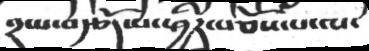༢་པ་བརྩོད་པ་ཕྱིར་བཅོས་པ་ལ་
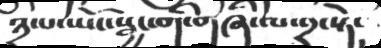༣་པ་ཡོང་སྦྱང་གི་གཞི་ལ་༢་སྟེ།
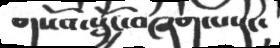གསོབ་སྦྱོང་བཞིག་པ་དང།
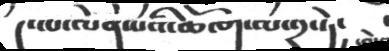༩་པ་ལེན་པའི་ཆོ་ག་ལ་༢་ཏེ།
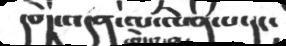དགེ་འདུན་ལ་ལེན་པ་དང།
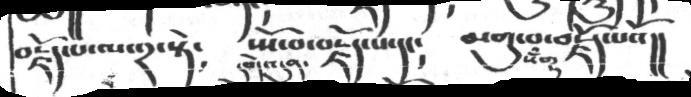བརྗོད་པ་ལ་༢་སྟེ༴  སྤོང་བ་བརྗོད་པ་དང༴  མགུ་བ་བརྗོད་པའོ།།
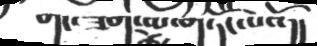གང་ཟག་ལ་གཏོང་པའོ།།
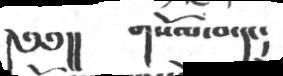༄༅།།  གསོལ་བ་དང
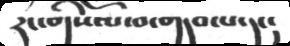རང་གིསོལ་བ་གདབ་པ་དང།
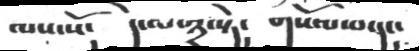ལས་སོ།  དེ་ལ་༣་སྟེ།  གསོལ་བ་དང།
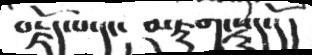བརྗོད་པ་དང། མཇུག་སྡུད་དོ།
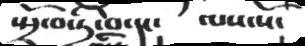སྤྲོ་བ་དྲི་བ་དང།  ལས་སོ།
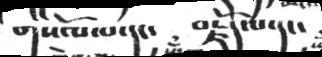གསོལ་པ་དང།  བརྗོད་པ་དང།
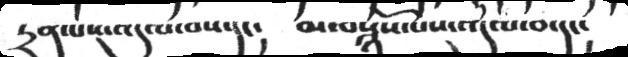དྲན་པས་འདུལ་བས་དང།  མ་བསྙོས་པས་འདུལ་བ་དང།
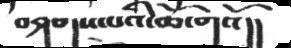བཤགས་པའི་ཆོ་གའོ།།
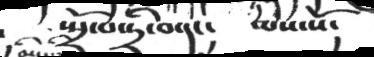སྤྲོ་བ་དྲི་བ་དང།  ལས་སོ།
